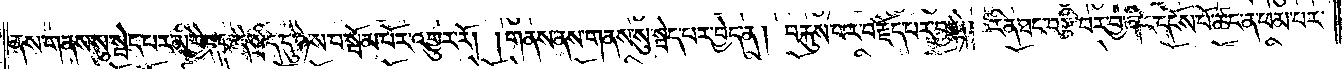ནས་གནས་སུ་སྦེད་པར་མི་བྱེད་པ་དེ་སྲིད་དུ་ཉེས་པ་སྦོམ་པོར་འགྱུར་རོ། །གནས་ནས་གནས་སུ་སྦེད་པར་བྱེད་ན། བརྐུས་པར་བརྗོད་པར་བྱ་སྟེ། རིན་ཐང་བརྩི་བར་བྱ་ཞིང་དངོས་པོ་ཚང་ན་ཕམ་པར་
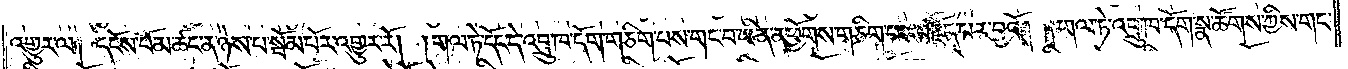འགྱུར་ལ། དངོས་པོ་མ་ཚང་ན་ཉེས་པ་སྦོམ་པོར་འགྱུར་རོ། །གལ་ཏེ་དོང་དེ་འབྲུ་ཁ་དོག་གཅིག་པས་གང་བ་ཡིན་ན་ཕྱོགས་གཅིག་པར་བརྗོད་པར་བྱའོ། །གལ་ཏེ་འབྲུ་ཁ་དོག་སྣ་ཚོགས་ཀྱིས་གང་
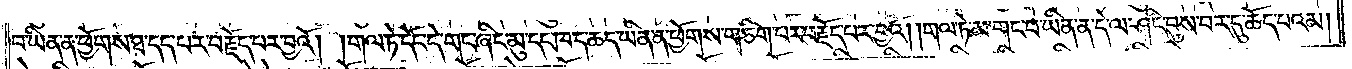བ་ཡིན་ན་ཕྱོགས་ཐ་དད་པར་བརྗོད་པར་བྱའོ། །གལ་ཏེ་དོང་དེ་གང་ཞིང་མུ་དང་ཁད་ཆད་ཡིན་ན་ཕྱོགས་གཅིག་པར་བརྗོད་པར་བྱའོ། །གལ་ཏེ་མ་གང་བ་ཡིན་ན་དེ་ལ་ཤིང་བུས་བར་དུ་ཆོད་པའམ།
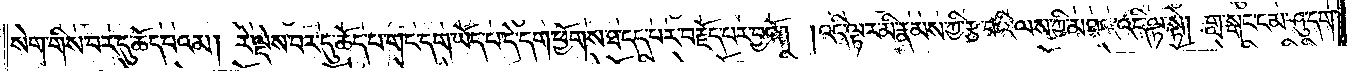སེག་གིས་བར་དུ་ཆོད་པའམ། རེ་ལྡེས་པར་དུ་ཆོད་པ་གང་དག་ཡོད་པ་དེ་དག་ཕྱོགས་ཐ་དད་པར་བརྗོད་པར་བྱའོ། །འདི་ལྟར་མི་རྣམས་ཀྱི་རྩ་བའི་ལས་ཀྱི་མཐའ་འདི་ལྟ་སྟེ། གླ་སྒང་ངམ་ཤུ་དག་
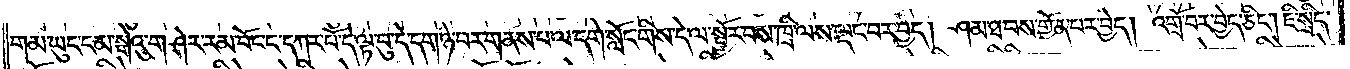གམ་ཡུང་ངམ་སྒེའུ་གཤེར་རམ་བོང་ང་དཀར་པོ་དེ་ལྟ་བུ་དེ་དག་ཉེ་བར་གནས་པ་ལ་དགེ་སློང་གིས་དེ་ལ་སྦྱོར་བས་ཁྲི་ལས་ལྡང་བར་བྱེད། ཤམ་ཐབས་གྱོན་པ་བྱེད། འགྲོ་བར་བྱེད་ཅིང༌། ཇི་སྲིད་
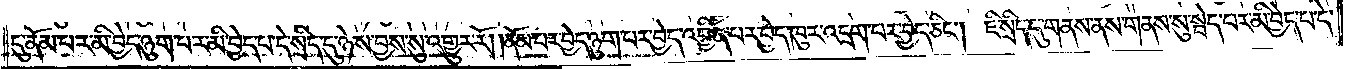དུ་ནོམ་པར་མི་བྱེད་ཉུག་པར་མི་བྱེད་པ་དེ་སྲིད་དུ་ཉེས་བྱས་སུ་འགྱུར་རོ། །ནོམ་པར་བྱེད་ཉུག་པར་བྱེད་འབྱིན་པར་བྱེད་ཁུར་འདྲག་པར་བྱེད་ཅིང༌། ཇི་སྲིད་དུ་གནས་ནས་གནས་སུ་སྦེད་པར་མི་བྱེད་པ་དེ་
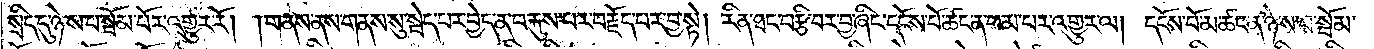སྲིད་དུ་ཉེས་པ་སྦོམ་པོར་འགྱུར་རོ། །གནས་ནས་གནས་སུ་སྦེད་པར་བྱེད་ན་བརྐུས་པར་བརྗོད་པར་བྱ་སྟེ། རིན་ཐང་བརྩི་བར་བྱ་ཞིང་དངོས་པོ་ཚང་ན་ཕམ་པར་འགྱུར་ལ། དངོས་པོ་མ་ཚང་ན་ཉེས་པ་སྦོམ་
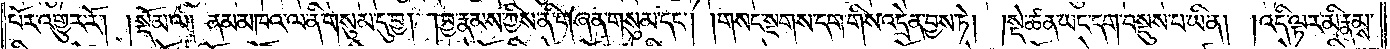པོར་འགྱུར་རོ། །སྡོམ་ལ། ནམ་མཁའ་ལ་ནི་གསུམ་དུ་བྱ། །བྱ་རྣམས་ཀྱིས་ནི་གཞན་གསུམ་དང༌། །གསང་སྔགས་དག་གིས་འདྲེན་བྱས་ཏེ། །སྡེ་ཚན་ཡང་དག་བསྡུས་པ་ཡིན། །འདི་ལྟར་མི་རྣམས་
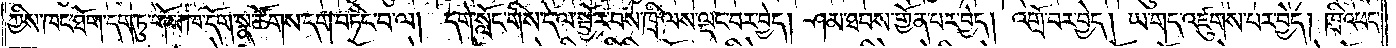ཀྱིས་ཁང་ཐོག་དག་ཏུ་གོས་ཁ་དོག་སྣ་ཚོགས་དག་བཏིང་བ་ལ། དགེ་སློང་གིས་དེ་ལ་སྦྱོར་བས་ཁྲི་ལས་ལྡང་བར་བྱེད། ཤམ་ཐབས་གྱོན་པར་བྱེད། འགྲོ་བར་བྱེད། ཡ་གད་འཛུགས་པར་བྱེད། ཁྲི་འཕང་
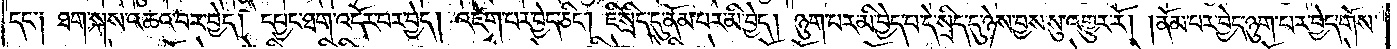དང་༑ ཐག་སྐས་འཆའ་བར་བྱེད། །དཔྱང་ཐག་འདོར་བར་བྱེད། །འཛེག་པར་བྱེད་ཅིང༌། ཇི་སྲིད་དུ་ནོམ་པར་མི་བྱེད། ཉུག་པར་མི་བྱེད་པ་དེ་སྲིད་དུ་ཉེས་བྱས་སུ་འགྱུར་རོ། །ནོམ་པར་བྱེད་ཉུག་པར་བྱེད་གོས་
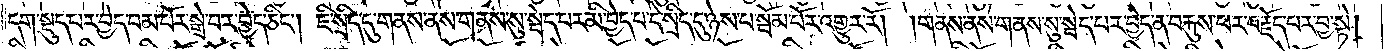དག་སྡུད་པར་བྱེད་བམ་པོར་སྒྲེ་བར་བྱེད་ཅིང༌། ཇི་སྲིད་དུ་གནས་ནས་གནས་སུ་སྦེད་པར་མི་བྱེད་པ་དེ་སྲིད་དུ་ཉེས་པ་སྦོམ་པོར་འགྱུར་རོ། །གནས་ནས་གནས་སུ་སྦེད་པར་བྱེད་ན་བརྐུས་པར་བརྗོད་པར་བྱ་སྟེ།
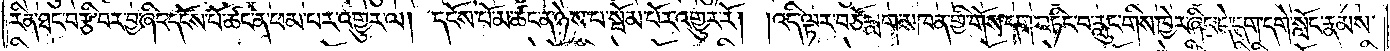རིན་ཐང་བརྩི་བར་བྱ་ཞིང་དངོས་པོ་ཚང་ན་ཕམ་པར་འགྱུར་ལ། དངོས་པོ་མ་ཚང་ན་ཉེས་པ་སྦོམ་པོར་འགྱུར་རོ། །འདི་ལྟར་བཙོ་བླག་མཁན་གྱི་གོས་དག་བཏིང་བ་རླུང་གིས་ཁྱེར་ཞིང་དེ་དག་དགེ་སློང་རྣམས་
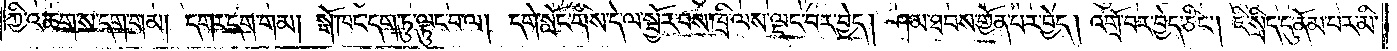ཀྱི་འཆག་ས་དག་གམ། དགར་དག་གམ། སྒོ་ཁང་དག་ཏུ་ལྟུང་བ་ལ། དགེ་སློང་གིས་དེ་ལ་སྦྱོར་བས་ཁྲི་ལས་ལྡང་བར་བྱེད། ཤམ་ཐབས་གྱོན་པར་བྱེད། འགྲོ་བར་བྱེད་ཅིང༌། ཇི་སྲིད་དུ་ནོམ་པར་མི་
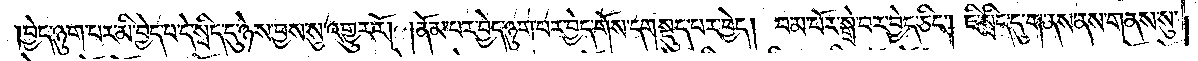བྱེད་ཉུག་པར་མི་བྱེད་པ་དེ་སྲིད་དུ་ཉེས་བྱས་སུ་འགྱུར་རོ། །ནོམ་པར་བྱེད་ཉུག་པར་བྱེད་གོས་དག་སྡུད་པར་བྱེད། བམ་པོར་སྒྲེ་བར་བྱེད་ཅིང༌། ཇི་སྲིད་དུ་གནས་ནས་གནས་སུ་
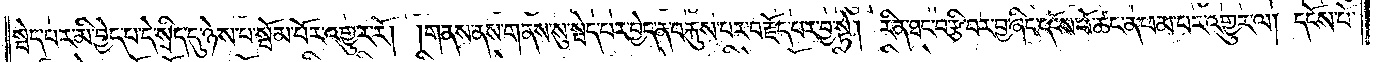སྦེད་པར་མི་བྱེད་པ་དེ་སྲིད་དུ་ཉེས་པ་སྦོམ་པོར་འགྱུར་རོ། །གནས་ནས་གནས་སུ་སྦེད་པར་བྱེད་ན་བརྐུས་པར་བརྗོད་པར་བྱ་སྟེ། རིན་ཐང་བརྩི་བར་བྱ་ཞིང་དངོས་པོ་ཚང་ན་ཕམ་པར་འགྱུར་ལ། དངོས་པོ་
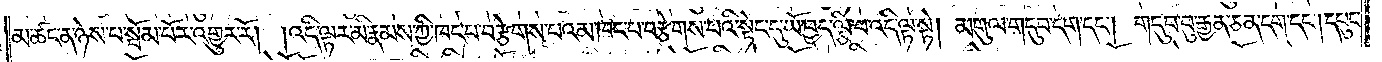མ་ཚང་ན་ཉེས་པ་སྦོམ་པོར་འགྱུར་རོ། །འདི་ལྟར་མི་རྣམས་ཀྱི་ཁང་པ་བརྩེགས་པའམ་ཁང་པ་བརྩེགས་པའི་སྟེང་དུ་ཡོ་བྱད་ལྕི་བ་འདི་ལྟ་སྟེ། མགུལ་གདུབ་དག་དང༌། །གདུབ་བུ་རྒྱན་ཅན་དག་དང༌། དཔུང་
